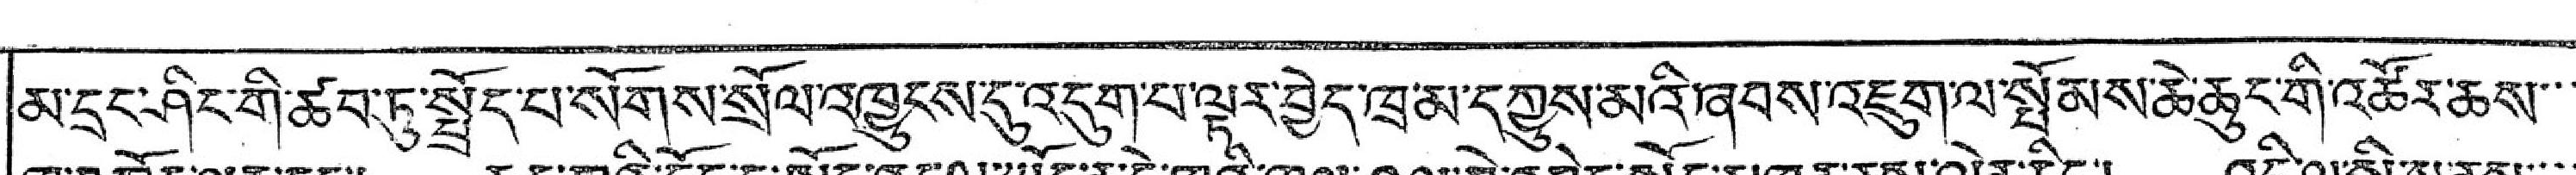མ་དྲང་ཤིང་གི་ཚབ་ཏུ་སྤྲོད་པ་སོགས་སྲོལ་འཁྱུངས་དུ་འདུག་པ་ལྟར་བྱེད་ཁྲ་མ་དཀྱུས་མའི་ཞབས་འཇུག་ལ་སྤོམས་ཆེ་ཆུང་གི་འཚོར་ཆས་་་
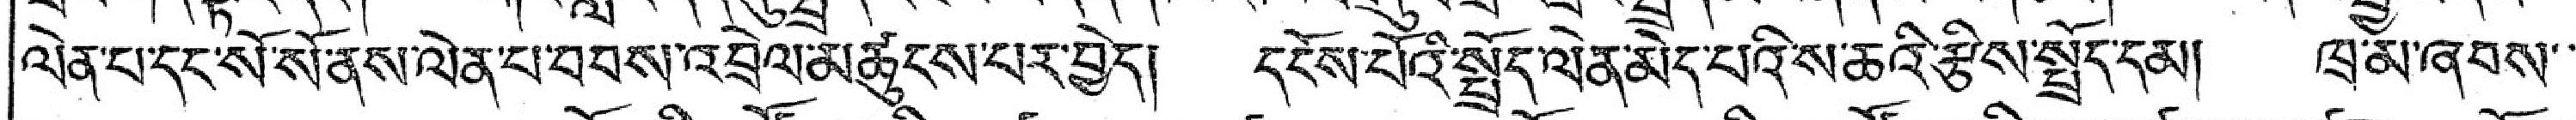ལེན་པ་དང་སོ་སོ་ནས་ལེན་པ་བབས་འབྲེལ་མཚུངས་པར་བྱེད། དངོས་པོའི་སྤྲོད་ལེན་མེད་པའི་ས་ཆའི་རྩིས་སྤྲོད་དམ། ཁྲ་མ་ཞབས་་
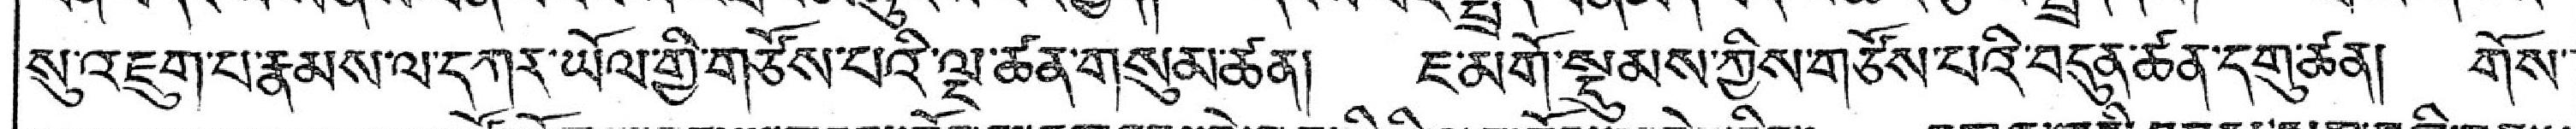སུ་འཇུག་པ་རྣམས་ལ་དཀར་ཡོལ་གྱི་གཙོས་པའི་ལྔ་ཚན་གསུམ་ཚན། ཇ་མགོ་སྡུམས་ཀྱིས་གཙོས་པའི་བདུན་ཚན་དགུ་ཚན། གོས་་
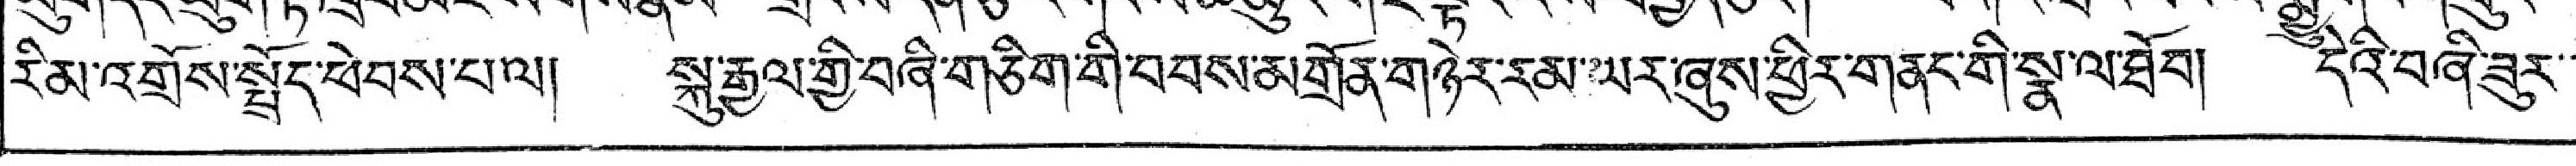རིམ་འགྲོས་སྤྲོད་ཕེབས་པ་ལ། སྐུ་རྒྱལ་གྱི་བཞི་གཅིག་གི་བབས་མགྲོན་གཉེར་རམ་ཡར་ཞུས་ཕྱིར་གནང་གི་སྣ་ལ་ཐོབ། དེའི་བཞི་ཟུར་་་
